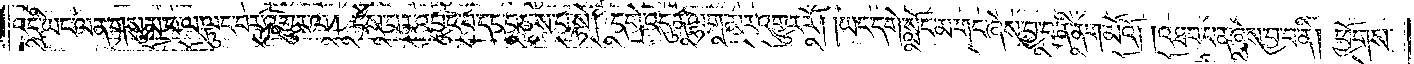འདི་ཡང་ལན་གསུམ་པ་ལ་ལྟུང་བར་འགྱུར་ལ། ངེས་པར་འབྱུང་བ་དང་བཅས་པ་སྟེ། དགེ་འདུན་ལྷག་མར་འགྱུར་རོ། །ཡང་དགེ་སློང་མ་གང་ཞེས་བྱ་བ་ནི་ནག་མོའོ། །འཐབ་པ་ན་ཞེས་བྱ་བ་ནི། ཕྱོགས་
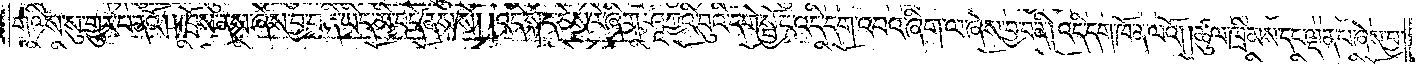གཉིས་སུ་གྱུར་བ་ནའོ། །ཁྲོས་ནས་ཞེས་བྱ་བ་ནི་ཡིད་མི་བདེ་ནས་སོ། །འདི་སྐད་ཅེས་རེ་ཞིག་ཤཱཀྱའི་བུའི་དགེ་སྦྱོང་འདི་དག་འབའ་ཞིག་ལ་ཞེས་བྱ་བ་ནི། འདི་དག་ཁོ་ན་ལའོ། །ཚུལ་ཁྲིམས་དང་ལྡན་པ་ཞེས་བྱ་
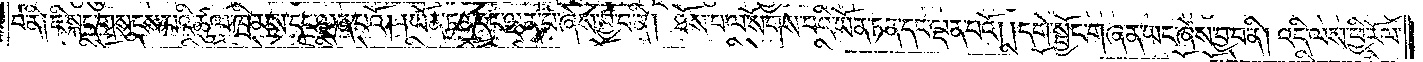བ་ནི༑ ཇི་སྐད་གསུངས་པའི་ཚུལ་ཁྲིམས་དང་ལྡན་པའོ། །ཡོན་ཏན་དང་ལྡན་པ་ཞེས་བྱ་བ་ནི། ཐོས་པ་ལ་སོགས་པའི་ཡོན་ཏན་དང་ལྡན་པའོ། །དགེ་སྦྱོང་གཞན་ཡང་ཞེས་བྱ་བ་ནི། འདི་ལས་ཕྱི་རོལ་
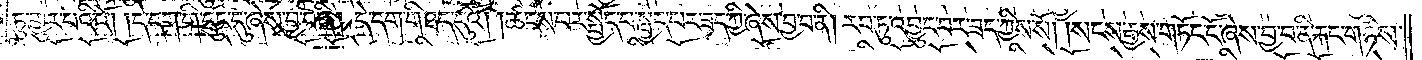ཏུ་གྱུར་པའིའོ། །དེ་དག་གི་དྲུང་དུ་ཞེས་བྱ་བ་ནི། དེ་དག་གི་ཐད་དུའོ། །ཚངས་པར་སྤྱོད་པ་སྤྱད་པར་ཟད་ཀྱི་ཞེས་བྱ་བ་ནི། རབ་ཏུ་འབྱུང་བར་ཟད་ཀྱིས་སོ། །སངས་རྒྱས་གཏོང་ངོ་ཞེས་བྱ་བ་ནི་རྐང་གཉིས་
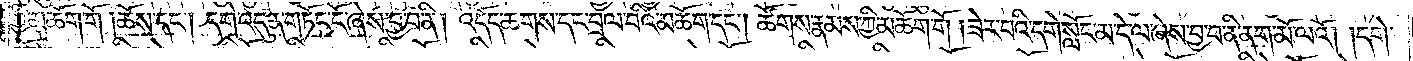ཀྱི་མཆོག་གོ །ཆོས་དང༌། དགེ་འདུན་གཏོང་ངོ་ཞེས་བྱ་བ་ནི། འདོད་ཆགས་དང་བྲལ་བའི་མཆོག་དང༌། ཚོགས་རྣམས་ཀྱི་མཆོག་གོ །ཟེར་བའི་དགེ་སློང་མ་དེ་ལ་ཞེས་བྱ་བ་ནི་ནག་མོ་ལའོ། །དགེ་
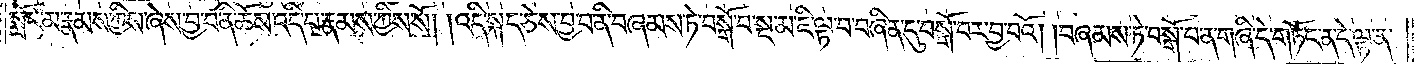སློང་མ་རྣམས་ཀྱིས་ཞེས་བྱ་བ་ནི་ཆོས་འདི་པ་རྣམས་ཀྱིས་སོ། །འདི་སྐད་ཅེས་བྱ་བ་ནི་བཞམས་ཏེ་བསྒོ་བ་སྔ་མ་ཇི་ལྟ་བ་བཞིན་དུ་བསྒོ་བར་བྱ་བའོ། །བཞམས་ཏེ་བསྒོ་བ་ན་གཞི་དེ་གཏོང་ན་དེ་ལྟ་ན་
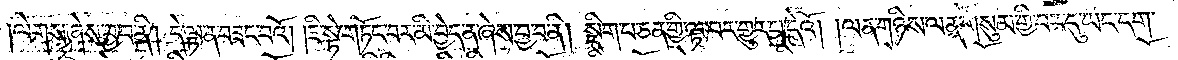ལེགས་ཞེས་བྱ་བ་ནི། དེ་ལྟ་ན་བཟང་བའོ། །ཇི་སྟེ་གཏོང་བར་མི་བྱེད་ན་ཞེས་བྱ་བ་ནི། སྡིག་པ་ཅན་གྱི་ལྟ་བར་གྱུར་པ་དེའོ། །ལན་གཉིས་ལན་གསུམ་གྱི་བར་དུ་ཡང་དག་
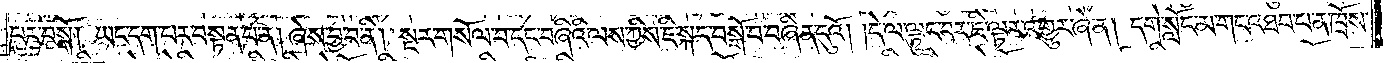པར་བསྒོ། ཡང་དག་པར་བསྟན་པ་ན། ཞེས་བྱ་བ་ནི། སྔར་གསོལ་བ་དང་བཞིའི་ལས་ཀྱིས་ཇི་སྐད་བསྒོ་བ་བཞིན་དུའོ། །དེ་ལ་ལྟུང་བར་ཇི་ལྟར་འགྱུར་ཞེ་ན། དགེ་སློང་མ་གང་འཐབ་པ་ན་ཁྲོས་
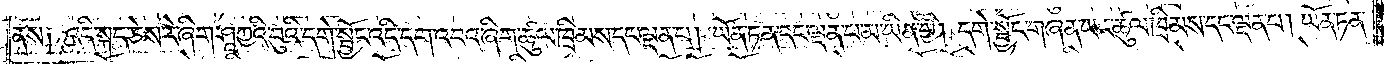ནས༑ འདི་སྐད་ཅེས་རེ་ཞིག་ཤཱཀྱའི་བུའི་དགེ་སྦྱོང་འདི་དག་འབའ་ཞིག་ཚུལ་ཁྲིམས་དང་ལྡན་པ། ཡོན་ཏན་དང་ལྡན་པ་མ་ཡིན་གྱི། དགེ་སྦྱོང་གཞན་ཡང་ཚུལ་ཁྲིམས་དང་ལྡན་པ། ཡོན་ཏན་
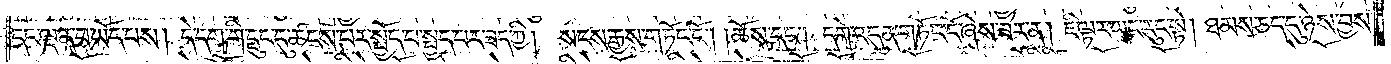དང་ལྡན་པ་ཡོད་པས། དེ་དག་གི་དྲུང་དུ་ཚངས་པར་སྤྱོད་པ་སྤྱད་པར་ཟད་ཀྱི། སངས་རྒྱས་གཏོང་ངོ༌། །ཆོས་དང༌། དགེ་འདུན་གཏོང་ངོ་ཞེས་ཟེར་ན། ཇི་ལྟར་ཡང་རུང་སྟེ། ཐམས་ཅད་དུ་ཉེས་བྱས་
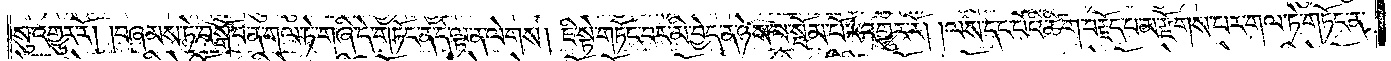སུ་འགྱུར་རོ། །བཞམས་ཏེ་བསྒོ་བ་ན་གལ་ཏེ་གཞི་དེ་གཏོང་ན་དེ་ལྟ་ན་ལེགས། ཇི་སྟེ་གཏོང་བར་མི་བྱེད་ན་ཉེས་པ་སྦོམ་པོར་འགྱུར་རོ། །ལས་དང་པོའི་ཚིག་བརྗོད་པ་མ་རྫོགས་པར་གལ་ཏེ་གཏོང་ན་
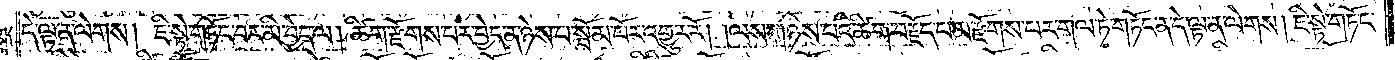དེ་ལྟ་ན་ལེགས། ཇི་སྟེ་གཏོང་བར་མི་བྱེད་ལ། ཚིག་རྫོགས་པར་བྱེད་ན་ཉེས་པ་སྦོམ་པོར་འགྱུར་རོ། །ལས་གཉིས་པའི་ཚིག་བརྗོད་པ་མ་རྫོགས་པར་གལ་ཏེ་གཏོང་ན་དེ་ལྟ་ན་ལེགས། ཇི་སྟེ་གཏོང་
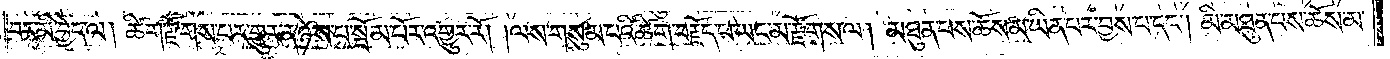བར་མི་བྱེད་ལ། ཚིག་རྫོགས་པར་གྱུར་ན་ཉེས་པ་སྦོམ་པོར་འགྱུར་རོ། །ལས་གསུམ་པའི་ཚིག་བརྗོད་པ་ཡང་མ་རྫོགས་ལ། མཐུན་པས་ཆོས་མ་ཡིན་པར་བྱས་པ་དང༌། མི་མཐུན་པས་ཆོས་མ་
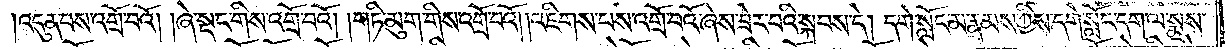འདུན་པས་འགྲོ་བའོ། །ཞེས་སྡང་གིས་འགྲོ་བའོ། །གཏི་མུག་གིས་འགྲོ་བའོ། །འཇིགས་པས་འགྲོ་བའོ་ཞེས་ཟེར་བའི་སྐབས་དེ། དགེ་སློང་མ་རྣམས་ཀྱིས་དགེ་སློང་དག་ལ་སྨྲས་
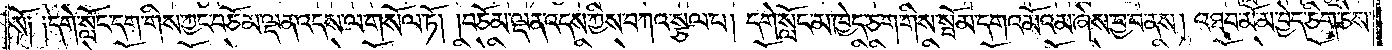སོ༑ ༑དགེ་སློང་དག་གིས་ཀྱང་བཅོམ་ལྡན་འདས་ལ་གསོལ་ཏོ། །བཅོམ་ལྡན་འདས་ཀྱིས་བཀའ་སྩལ་པ། དགེ་སློང་མ་ཁྱེད་ཅག་གིས་སྦོམ་དགའ་མོའམ་ཞེས་བྱ་བ་ནས། འཐབ་མོ་མ་བྱེད་ཅིག་ཅེས་
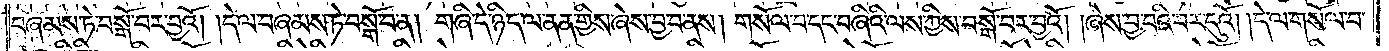བཞམས་ཏེ་བསྒོ་བར་བྱའོ། །དེ་ལ་བཞམས་ཏེ་བསྒོ་བ་ན། གཞི་དེ་ཉིད་ལ་ནན་གྱིས་ཞེས་བྱ་བ་ནས། གསོལ་བ་དང་བཞིའི་ལས་ཀྱིས་བསྒོ་བར་བྱའོ། །ཞེས་བྱ་བའི་བར་དུའོ། །དེ་ལ་གསོལ་བ་
